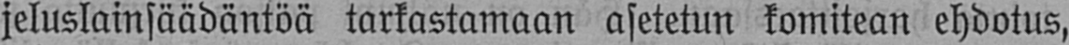jeluslainsäädäntöä tarkastamaan asetetun komitean ehdotus,
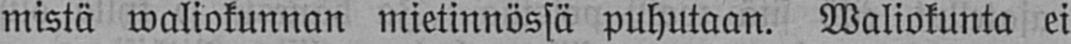mistä waliokunnan mietinnössä puhutaan. Waliokunta ei
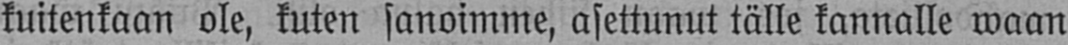kuitenkaan ole, kuten sanoimme, asettunut tälle kannalle waan
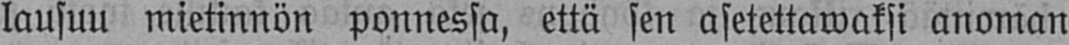lausuu mietinnön ponnessa, että sen asetettawaksi anoman
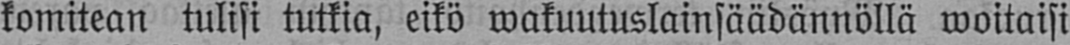komitean tulisi tutkia, eikö wakuutuslainsäädännöllä woitaisi
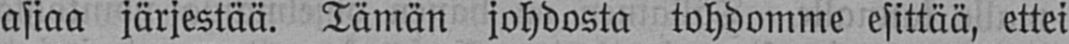asiaa järjestää. Tämän johdosta tahdomme esittää, ettei
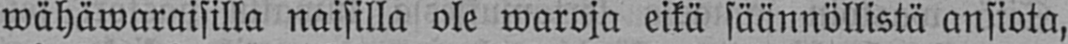wähäwaraisilla naisilla ole waroja eikä säännöllistä ansiota,
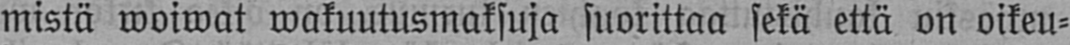mistä woiwat wakuutusmaksuja suorittaa sekä että on oikeu-
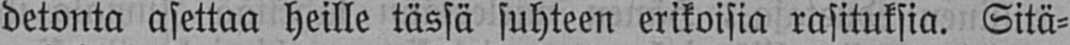detonta asettaa heille tässä suhteen erikoisia rasituksia. Sitä-
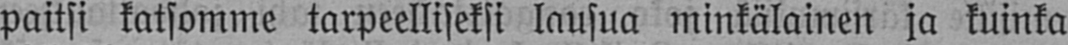paitsi katsomme tarpeelliseksi lausua minkälainen ja kuinka
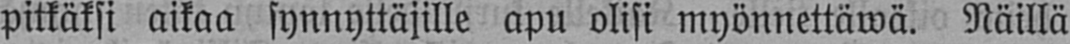pitkäksi aikaa synnyttäjille apu olisi myönnettäwä. Näillä
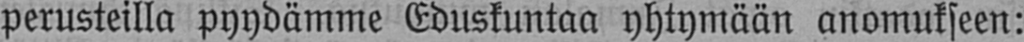perusteilla pyydämme Eduskuntaa yhtymään anomukseen:
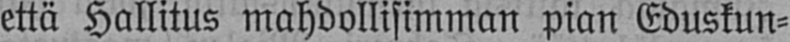että Hallitus mahdollisimman pian Eduskun-
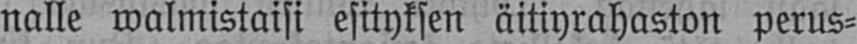nalle walmistaisi esityksen äitiyrahaston perus-
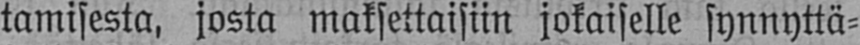tamisesta, josta maksettaisiin jokaiselle synnyttä-
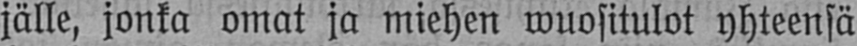jälle, jonka omat ja miehen wuositulot yhteensä
